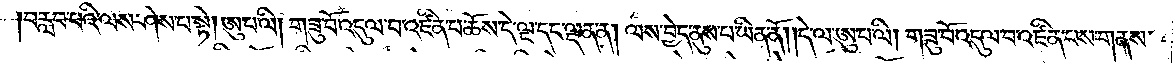བརླབ་པའི་ལས་ཤེས་པ་སྟེ། ཨུ་པ་ལི། གཟུ་བོ་འདུལ་བ་འཛིན་པ་ཆོས་དེ་ལྔ་དང་ལྡན་ན། ལས་བྱེད་ནུས་པ་ཡིན་ནོ། །དེ་ལ་ཨུ་པ་ལི། གཟུ་བོ་འདུལ་བ་འཛིན་པས་གནས་
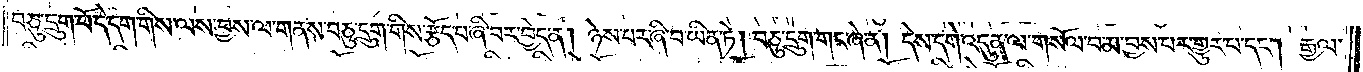བཅུ་དྲུག་པོ་དེ་དག་གིས་ལས་བྱས་ལ་གནས་བཅུ་དྲུག་གིས་རྩོད་པ་ཞི་བར་བྱེད་ན། ཉེས་པར་ཞི་བ་ཡིན་ཏེ། བཅུ་དྲུག་གང་ཞེ་ན། དེས་དགེ་འདུན་ལ་གསོལ་བ་མ་བྱས་པར་གྱུར་པ་དང༌། རྒྱལ་
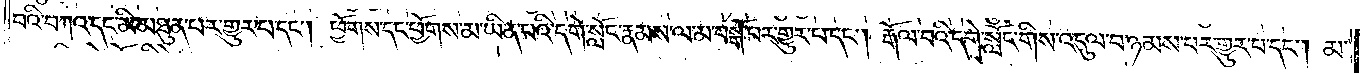བའི་བཀའ་དང་མི་མཐུན་པར་གྱུར་པ་དང༌། ཕྱོགས་དང་ཕྱོགས་མ་ཡིན་པའི་དགེ་སློང་རྣམས་ལ་མ་བསྒོ་བར་གྱུར་པ་དང༌། རྒོལ་བའི་དགེ་སློང་གིས་འདུལ་བ་ཉམས་པར་གྱུར་པ་དང༌། མ་
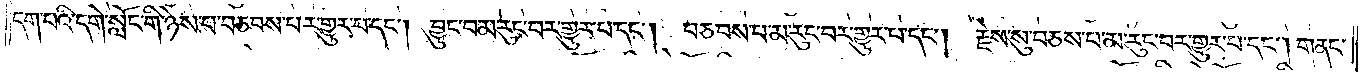དག་པའི་དགེ་སློང་གི་ཉེས་པ་བཅབས་པར་གྱུར་པ་དང༌། བྱུང་བ་མ་རུང་བར་གྱུར་པ་དང༌། བཅབས་པ་མ་རུང་བར་གྱུར་པ་དང༌། རྗེས་སུ་བཅས་པ་མ་རུང་བར་གྱུར་པ་དང༌། གནང་
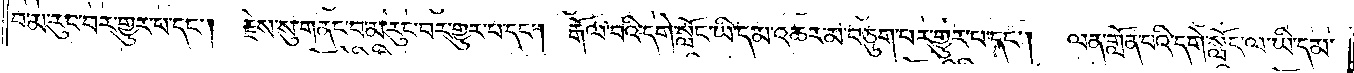བ་མ་རུང་བར་གྱུར་པ་དང༌། རྗེས་སུ་གནང་བ་མ་རུང་བར་གྱུར་པ་དང༌། རྒོལ་བའི་དགེ་སློང་ཡི་དམ་འཆར་མ་བཅུག་པར་གྱུར་པ་དང༌། ལན་གློན་པའི་དགེ་སློང་ལ་ཡི་དམ་
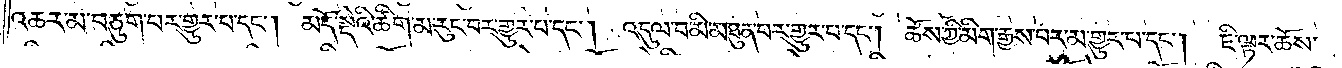འཆར་མ་བཅུག་པར་གྱུར་པ་དང༌། མདོ་སྡེའི་ཚིག་མ་རུང་བར་གྱུར་པ་དང༌། འདུལ་བ་མི་མཐུན་པར་གྱུར་པ་དང༌། ཆོས་ཀྱི་མིག་རྒྱས་པར་མ་གྱུར་པ་དང༌། ཇི་ལྟར་ཆོས་
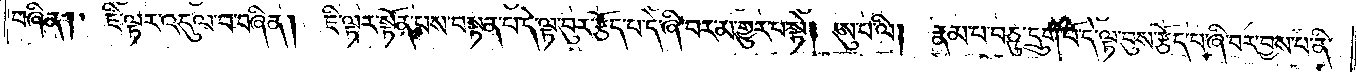བཞིན། ཇི་ལྟར་འདུལ་བ་བཞིན། ཇི་ལྟར་སྟོན་པས་བསྟན་པ་དེ་ལྟ་བུར་རྩོད་པ་དེ་ཞི་བར་མ་གྱུར་པ་སྟེ། ཨུ་པ་ལི། རྣམ་པ་བཅུ་དྲུག་པོ་དེ་ལྟ་བུས་རྩོད་པ་ཞི་བར་བྱས་པ་ནི་
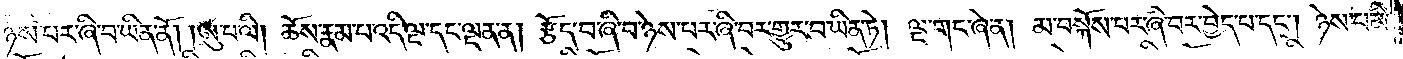ཉེས་པར་ཞི་བ་ཡིན་ནོ། །ཨུ་པ་ལི། ཆོས་རྣམ་པ་འདི་ལྔ་དང་ལྡན་ན། རྩོད་བ་ཞི་བ་ཉེས་པར་ཞི་བར་གྱུར་བ་ཡིན་ཏེ། ལྔ་གང་ཞེ་ན། མ་བསྐོས་པར་ཞི་བར་བྱེད་པ་དང༌། ཉེས་པ་མི་
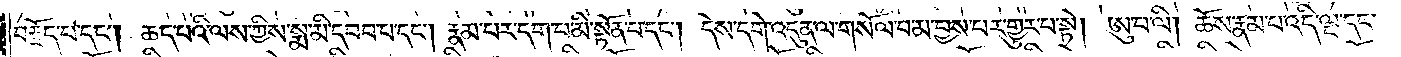བརྗོད་པ་དང༌། ཆད་པའི་ལས་ཀྱིས་སྨ་མི་དབབ་པ་དང༌། རྣམ་པར་དག་པ་མི་སྟོན་པ་དང༌། དེས་དགེ་འདུན་ལ་གསོལ་བ་མ་བྱས་པར་གྱུར་པ་སྟེ། ཨུ་པ་ལི། ཆོས་རྣམ་པ་འདི་ལྔ་དང་
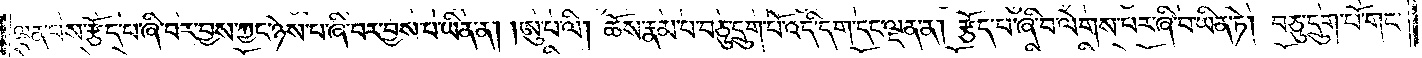ལྡན་པས་རྩོད་པ་ཞི་བར་བྱས་ཀྱང་ཉེས་པ་ཞི་བར་བྱས་པ་ཡིན་ན། །ཨུ་པ་ལི། ཆོས་རྣམ་པ་བཅུ་དྲུག་པོ་འདི་དག་དང་ལྡན་ན། རྩོད་པ་ཞི་བ་ལེགས་པར་ཞི་བ་ཡིན་ཏེ། བཅུ་དྲུག་པོ་གང་
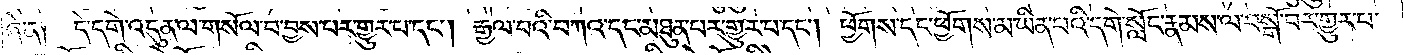ཞེ་ན༑ དེ་དགེ་འདུན་ལ་གསོལ་བ་བྱས་པར་གྱུར་པ་དང༌། རྒྱལ་བའི་བཀའ་དང་མཐུན་པར་གྱུར་པ་དང༌། ཕྱོགས་དང་ཕྱོགས་མ་ཡིན་པའི་དགེ་སློང་རྣམས་ལ་བསྒོ་བར་གྱུར་པ་
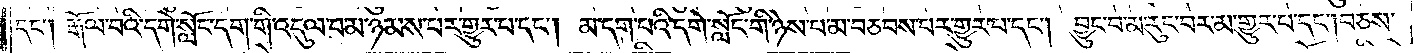དང༌། རྒོལ་བའི་དགེ་སློང་དག་གི་འདུལ་བ་མ་ཉམས་པར་གྱུར་པ་དང༌། མ་དག་པའི་དགེ་སློང་གི་ཉེས་པ་མ་བཅབས་པར་གྱུར་པ་དང༌། བྱུང་བ་མ་རུང་བར་མ་གྱུར་པ་དང༌། བཅས་
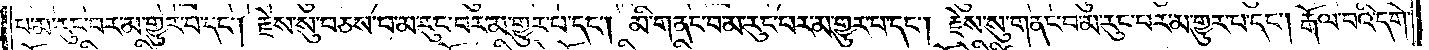པ་མ་རུང་བར་མ་གྱུར་པ་དང༌། རྗེས་སུ་བཅས་པ་མ་རུང་བར་མ་གྱུར་པ་དང༌། མི་གནང་བ་མ་རུང་བར་མ་གྱུར་པ་དང༌། རྗེས་སུ་གནང་བ་མ་རུང་བར་མ་གྱུར་པ་དང༌། རྒོལ་བའི་དགེ་
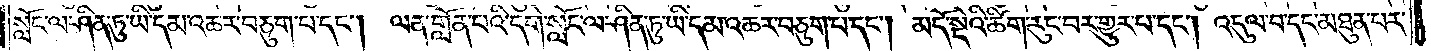སློང་ལ་ཤིན་ཏུ་ཡི་དམ་འཆར་བཅུག་པ་དང༌། ལན་གློན་པའི་དགེ་སློང་ལ་ཤིན་ཏུ་ཡི་དམ་འཆར་བཅུག་པ་དང༌། མདོ་སྡེའི་ཚིག་རུང་བར་གྱུར་པ་དང༌། འདུལ་བ་དང་མཐུན་པར་
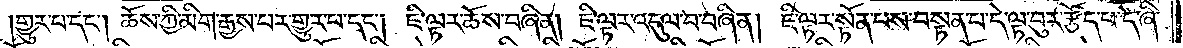གྱུར་པ་དང༌། ཆོས་ཀྱི་མིག་རྒྱས་པར་གྱུར་པ་དང༌། ཇི་ལྟར་ཆོས་བཞིན། ཇི་ལྟར་འདུལ་བ་བཞིན། ཇི་ལྟར་སྟོན་པས་བསྟན་པ་དེ་ལྟ་བུར་རྩོད་པ་དེ་ཞི་
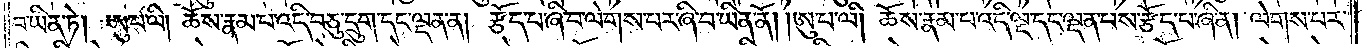བ་ཡིན་ཏེ། ཨུ་པ་ལི། ཆོས་རྣམ་པ་འདི་བཅུ་དྲུག་དང་ལྡན་ན། རྩོད་པ་ཞི་བ་ལེགས་པར་ཞི་བ་ཡིན་ནོ། །ཨུ་པ་ལི། ཆོས་རྣམ་པ་འདི་ལྔ་དང་ལྡན་པས་རྩོད་པ་ཞི་ན། ལེགས་པར་
